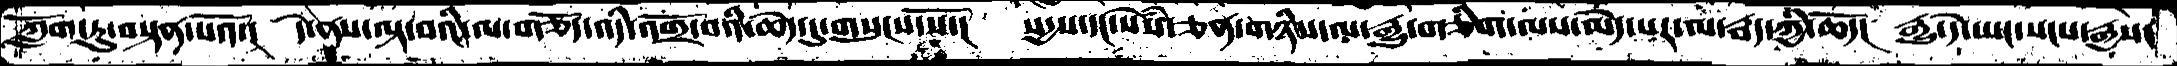ཀློག་ཏུ་བསྟན་པའོ་།  དེ་ནས་ལྟ་བའི་ལ་གཅོད་འདི་འགྲོ་བའི་ཆེད་དུ་གསུངས་སོ་།  སདྱས་སེཾས་ཅན་གཉིས་ལ་རྒྱུ་ཅིག་ལས་མེད་པར་ལ་རྦད་ཀྱི་ཆོད།  རྒྱུ་དེ་ཡང་སངས་རྒྱས་
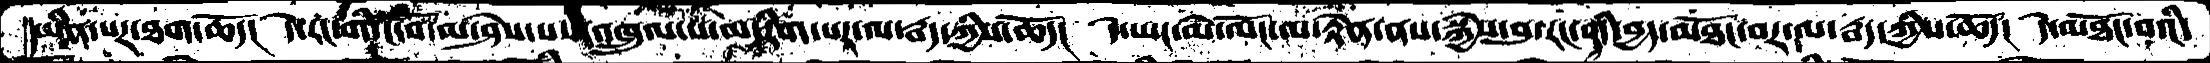ཡིན་པར་ཐག་ཆོད།  དེ་རང་གི་ངོ་བོ་མ་ཤེས་པས་འཁྲུལ་པ་མ་རིག་པར་ལ་རྦད་ཀྱིས་ཆོད།  དེ་ཡང་མེ་ལོང་ལ་རྟེན་ནས་སྐྱེས་བུ་རང་གི་བྱད་མཐོང་བར་ལ་རྦད་ཀྱིས་ཆོད།  དེ་མཐོང་བའི་
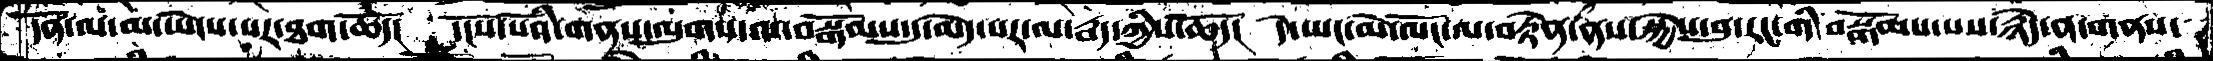དོན་ལ་མ་ཡེངས་པར་ཐག་ཆོད།  དངོས་པོའི་གནས་ལུགས་ལ་བསྒོམས་དུ་མེད་པར་ལ་རྦད་ཀྱིས་ཆོད།  དེ་ཡང་མེ་ལོང་ལ་བརྟེན་ནས་སྐྱེས་བུ་རང་གི་བསྒོམས་པས་རྙེད་ན་གནས་
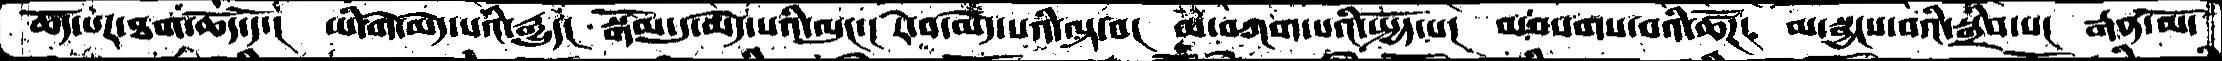ཆོད་པར་ཐག་ཆོད་དོ་།  ཡི་གེ་མེད་པའི་རྒྱུད།  སྒོམ་དུ་མེད་པའི་ལུང་།  རེ་བ་མེད་པའི་ལྟ་བ།  མ་འཀག་པའི་སྤྱོད་པ།  མ་བསགས་པའི་ཚོཌ།  མ་སྦྱངས་བའི་སྒྲིབ་པ།  རྒན་མོ་
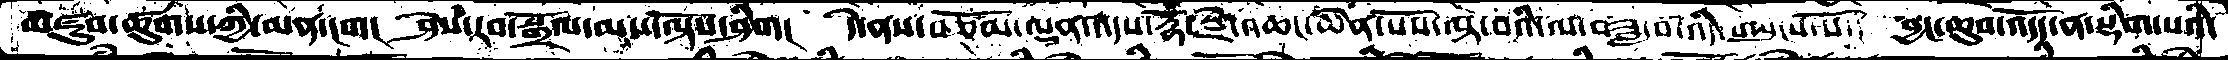མཛུབ་ཚུགས་ཀྱི་མན་ངག།  ཤེས་རབ་སྒྲོལ་མས་ལྟོས་ཤིག།  དེ་ནས་བཅོམ་ལྡན་འདས་རྡོ་རྗེ་འཆང་ཆེན་པོས་ལྟ་བའི་ལ་བཟླ་བ་འདི་གསུངས་སོ་།  བྱང་ཆུབ་འདོད་ན་སྡིག་པའི་
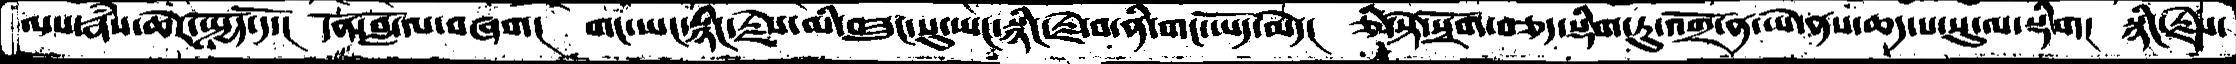ལས་རྣཾས་ཆེར་སྤྱོད་དོ་།  དོན་བློ་ལ་བཞག།  གང་ཡང་སྙིང་རྗེས་མི་བཟུང་སུ་ཡང་སྙིང་རྗེ་བ་ནི་གང་ཡོད་མེད།  ཅི་སྟེ་སྲོག་བཅད་སྡིག་ཏུ་འགྲོ་ན་ཡེ་ནས་ཆད་པ་སུ་ལ་སྡིག།  སྙིང་རྗེས་
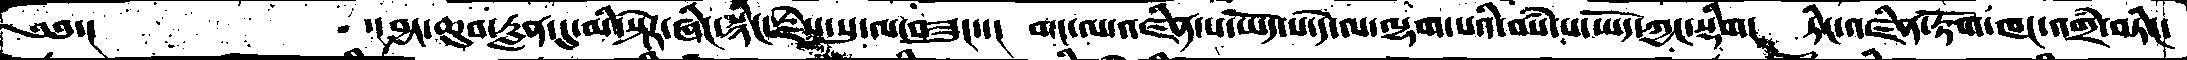༄༅་།     ་།བྱང་ཆུབ་རླན་དུ་མི་སྟེར་ཞིང་སྙིང་རྗེས་སུ་ལ་བཟུང་་།  གང་ལ་འཛིན་པ་ཡོད་པ་དེ་ལ་ལྷག་པའི་བསཾ་པ་ཡོད་ཀྱང་སྡིག།  ཏིང་འཛིན་རྟོག་ཁང་འགྲཾ་བཏིང་
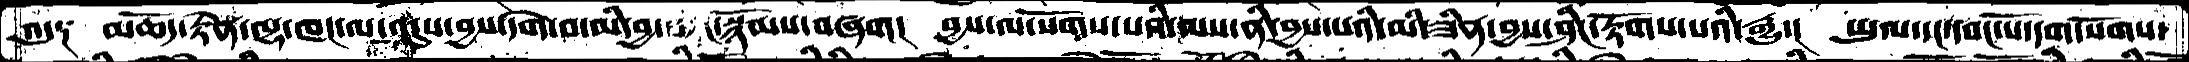འདུ༑  མཆོད་རྟེན་ལྷ་ཁང་ལ་འདུས་བྱས་དགེ་བ་མི་བྱ་ཡང་སྙོམས་བཞག། བྱས་ལ་སོགས་པའི་ལས་ནི་བྱས་པའི་མི་ཟིན་བྱས་ཤིང་རྟོགས་པའི་རྒྱུད་།  ཡུལ་དང་དབང་པོ་དག་སོགས་
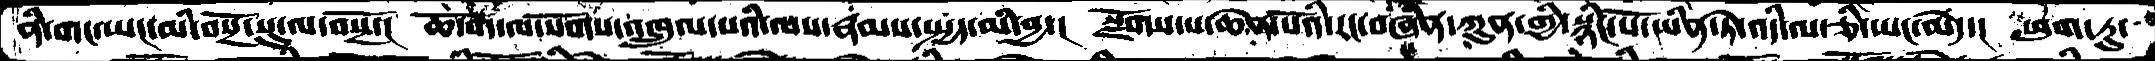ནི་གང་ཡང་མི་བསྔོ་སུ་ལ་བསྔོ་།  ཆོ་ག་ལ་སོགས་འཁྲུལ་པའི་ལས་རྣམས་སྤྱད་མི་བྱ་།  སྫོགས་པ་ཆེན་པོའི་རང་བཞིན་ཀུན་གྱི་སྙིང་པོ་ཡིན་ཏེ་འདི་ལ་ཅི་ཡང་མེད་།  ཕུག་ཏུ་
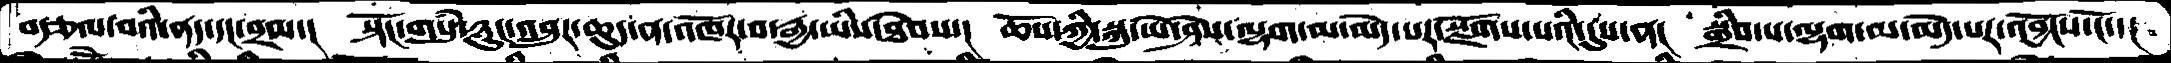བརྩལ་བའི་ནད་དང་བྲལ་།  སྟོང་གསུཾ་ཉུང་འབྲུར་ཆུད་ན་འཁོར་བ་རྒྱ་ཡིས་ཐེབས་།  ཆོས་ཀྱི་སྐུ་ཡེ་ཤེས་ལྷག་མ་མེད་པར་སྫོགས་པའི་དུས་ན།  སྒྲིབ་པ་ལྷག་མ་མེད་པར་འབྱོངས་ངོ་་།
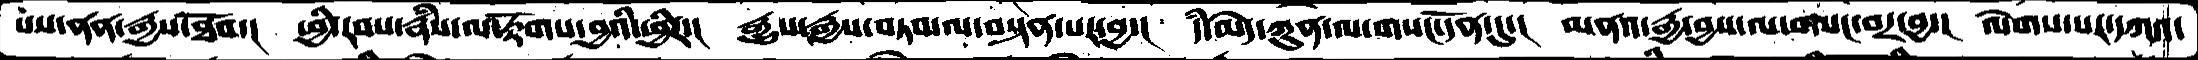པས་ནན་རྒྱས་ཐོབ་།  ཕྱི་རབས་རྣཾས་ལ་རྟོགས་བྱའི་ཕྱིར་།  རྒྱུས་རྒྱས་བཏབ་ལ་བསྟན་པར་བྱ་།  དཾ་མེད་ཀུན་ལ་གསང་དོན་དུ་།  མནའ་རྒྱ་བྱས་ལ་གསང་བར་བྱ་།  ལེགས་པར་དཀའ་
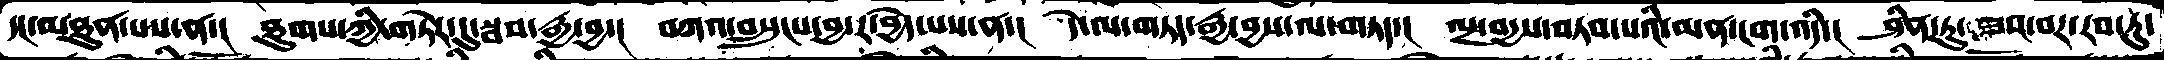དང་ཐུན་པས་ན་།  ཐུགས་ཀྱི་གཏེར་དུ་སྦས་རྒྱ་བྱ་།  བཀའ་བསྲུངས་བྱ་ར་བྱེད་པས་ན་།  དེ་ལ་གཏད་རྒྱ་བྱས་ལ་གཏད་།  ལྔ་བདྱས་བཏབ་པའི་མན་ངག་འདི་།  ཤིན་ཏུ་ཟབ་བར་རབ་ཏུ་
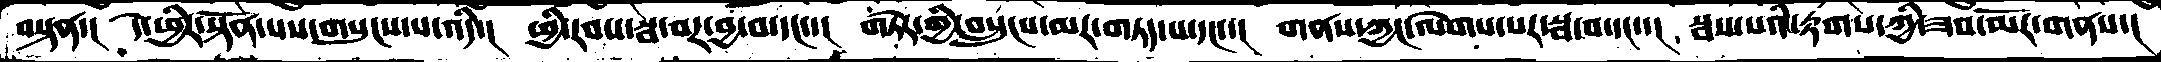བསྟན་།  དེ་ཕྱིར་སྟོན་པས་གསུངས་པ་འདི་།  ཕྱི་རབས་སྦ་བར་བྱ་བ་དང་་།  གཏེར་གྱི་བསྲུངས་མར་གཏད་པ་དང་་།  གནས་ཀྱང་ལེགས་པར་སྦ་བ་དང་་།  སྦས་པའི་རྟགས་ཀྱི་ཟབ་མོར་གནས་།
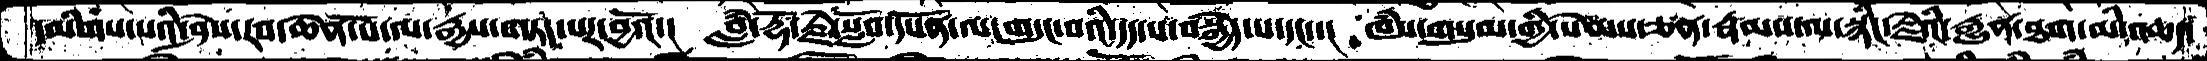དམིགས་པའི་ཤེས་རབ་ཆེན་པོ་ལ་རྒྱས་གཏད་པར་བྱའོ་།  བླཾ་རྡོ་རྗེ་སློབ་དཔོན་ལ་གདུང་བའི་དད་པ་བསྐྱེད་པ་དང་་།  ཁཾས་གསུམ་གྱི་སེམས་ཅན་རྣམས་ལ་སྙིང་རྗེའི་རྒྱུན་ཐག་མི་འཆད་
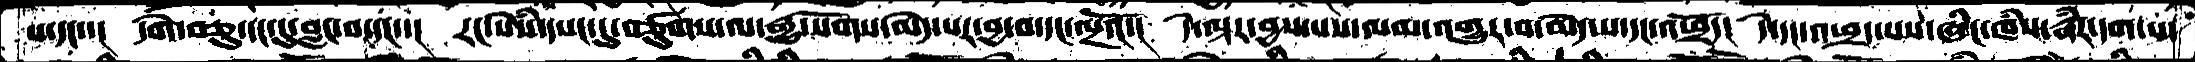པ་དང་་།  དགེ་བཅུ་དང་དུ་བླང་བ་དང་་།  རང་སེཾས་དཔང་དུ་བཙུགས་ལ་རྒྱུ་སོགས་མེད་པར་བྱ་བ་དང་ལྔའོ་།  དེ་ལྟར་བྱས་པས་ལམ་འགྱུར་བ་མེད་པ་དང་འཕྲོད།  དེ་དང་འཕྲད་པས་ཞིང་ཁཾས་རྣཾར་དག་པ་
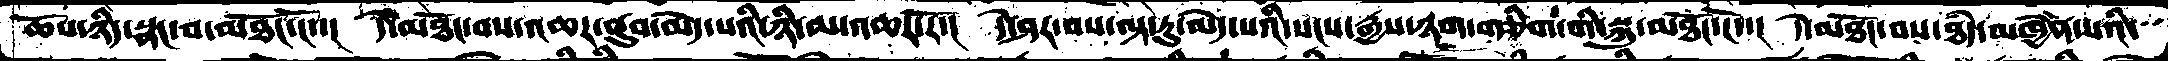ཆོས་ཉིད་སྣང་བ་མཐོང་ངོ་་།  དེ་མཐོང་བས་འཆར་ནུབ་མེད་པའི་ཉི་མ་འཆར་རོ་།  དེ་ཤར་བས་ལྟ་རུ་མེད་པའི་སངས་རྒྱས་ཉག་གཅིག་གི་སྐུ་མཐོང་ངོ་་།  དེ་མཐོང་བས་ཐཾད་མཁྱེན་པའི་
